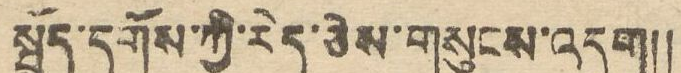སྤྲོད་དགོས་ཀྱི་རེད་ཅེས་གསུངས་འདུག།།
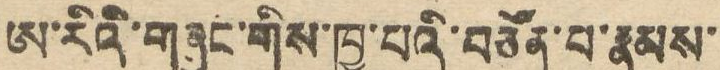ཨ་རིའི་གཞུང་གིས་ཁྱུ་པའི་བཙོན་པ་རྣམས་
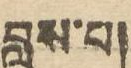བླུས་པ།
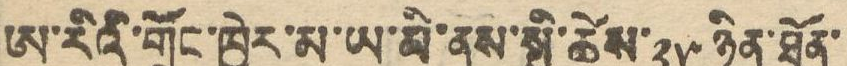ཨ་རིའི་གྲོང་ཁྱེར་མ་ཡ་མི་ནས་སྤྱི་ཚེས་ ༢༥ ཉིན་ཐོན་
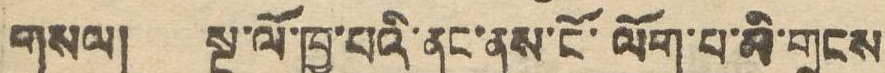གསལ། སྔ་ལོ་ཁྱུ་པའི་ནང་ནས་ངོ་ལོག་པ་མི་གྲངས
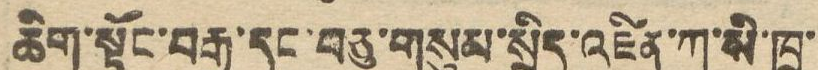ཆིག་སྟོང་བརྒྱ་དང་བཅུ་གསུམ་སྲིད་འཛིན་ཀ་སི་ཁྲ་
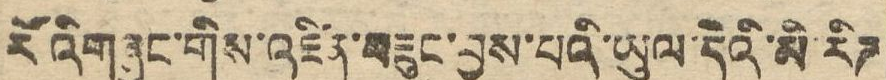རོའི གཞུང་གིས་འཛིན་བཟུང་བྱས་པའི་ཡུལ་དེའི་མི་རིཊ
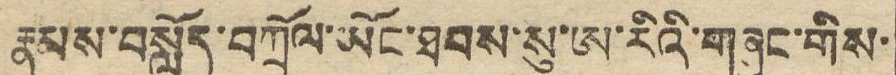རྣམས་བསློད་བཀྲོལ་ཡོང་ཐབས་སུ་ཨ་རིའི་གཞུང་གིས་
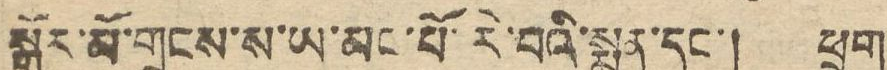སྒོར་མོ་གྲངས་ས་ཡ་མང་པོ་རེ་བའི་སྨན་དང་། ཕྲུག
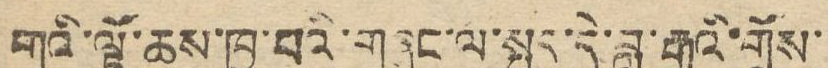གུའི་ལྟོ་ཆས་ཁྱུ་བའི་གཞུང་ལ་སྤྲད་དེ་བླུ་རྒྱུའི་གྲོས་
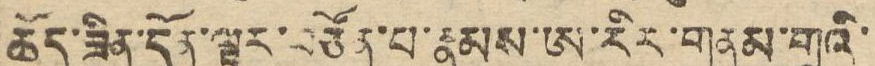ཆོད་ཟིན་དོན་ལྟར་བཙོན་པ་རྣམས་ཨ་རིའི་གནམ་གྲུའི་
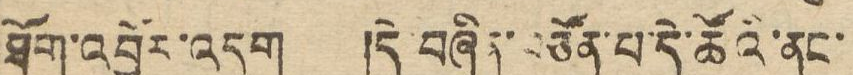ཐོག་འབྱོར་འདུག །དེ་བཞིན་བཙོན་པ་དེ་ཚོའི་ནང་
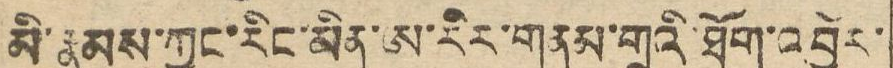མི་རྣམས་ཀྱང་རིང་མིན་ཨ་རིར་གནམ་གྲུའི་ཐོག་འབྱོར་
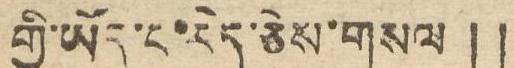གྱི་ཡོད་པ་རེད་ཅེས་གསལ།།
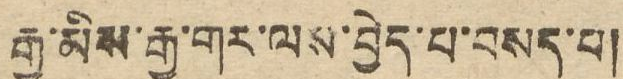རྒྱ་མིས་རྒྱ་གར་ལས་བྱེད་པ་བསད་པ།
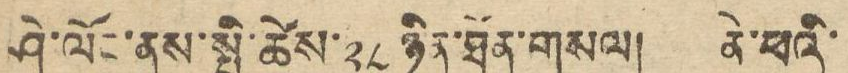ཤེ་ལོང་ནས་སྤྱི་ཚེས ༢༨ ཉིན་ཐོན་གསལ། ནེ་ཕའི་
